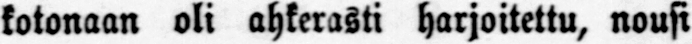kotonaan oli ahkerasti harjoitettu, nousi
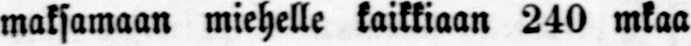maksamaan miehelle kaikkiaan 240 mkaa
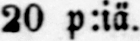30 p:iä.
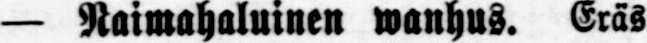— Naimahaluinen wanhus. Eräs
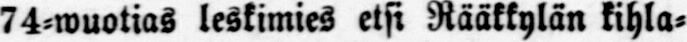74-wuotias leskimies etsi Rääkkylän kihla-
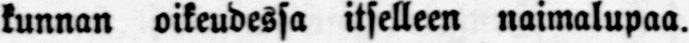kunnan oikeudessa itselleen naimalupaa.
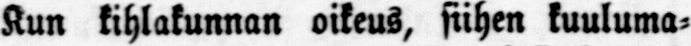Kun kihlakunnan oikeus, siihen kuuluma-
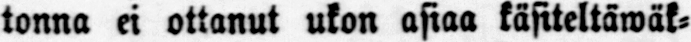tonna ei ottanut ukon asiaa käsiteltäwäk-
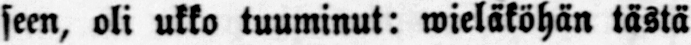seen, oli ukko tuuminut: wieläköhän tästä
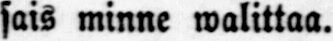sais minne walittaa.
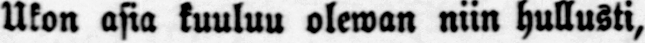Ukon asia kuuluu olewan niin hullusti,
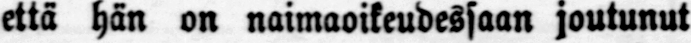että hän on naimaoikeudessaan joutunut
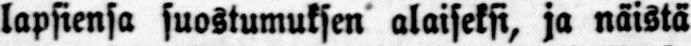lapsiensa suostumuksen alaiseksi, ja näistä
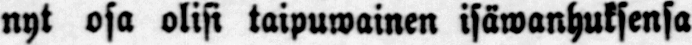nyt osa olisi taipuwainen isäwanhuksensa
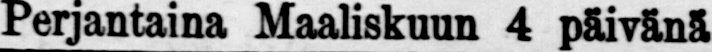Perjantaina Maaliskuun 4 päivänä
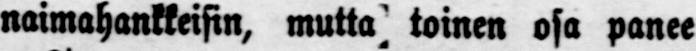naimahankkeisin, mutta toinen osa panee
